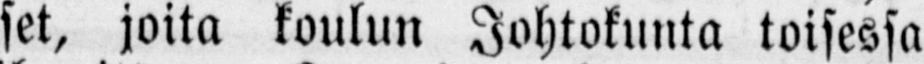set, joita koulun Johtokunta toisessa
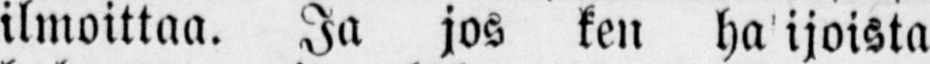ilmoittaa. Ja jos ken ha ijsoista
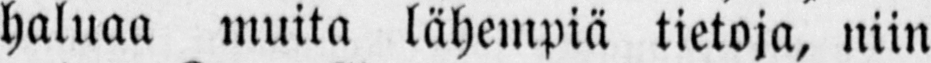haluaa muita lähempiä tietoja, niin
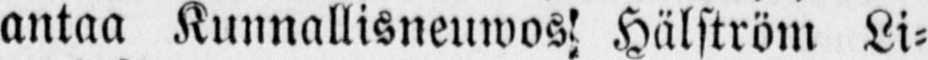antaa Kunnallisneuwos Hälström Li-
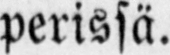perissä.
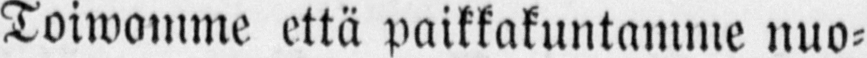Toiwomme että paikkakuntamme nuo-
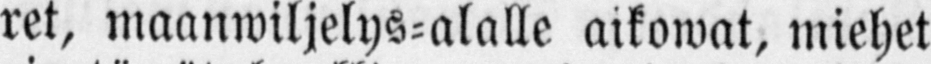ret, maanwiljelys-alalle aikowat, miehet
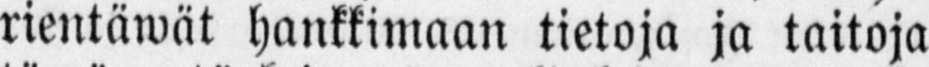rientäwät hankkimaan tietoja ja taitoja
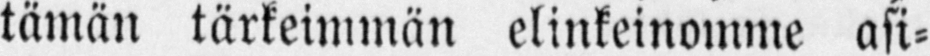tämän tärkeimmän elinkeinomme asi-
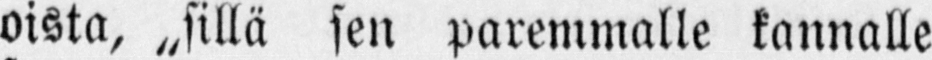oista, „sillä sen paremmalle kannalle
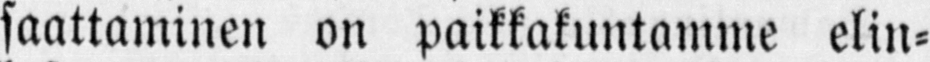saattaminen on paikkakuntamme elin-
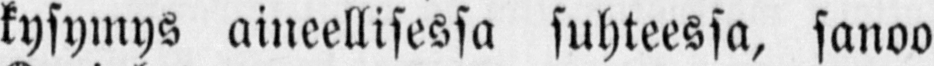kysymys aineellisessa suhteessa, sanoo
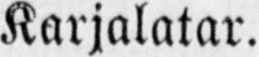Karjalatar.
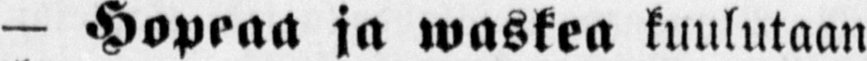— Hopeaa ja waskea kuulutaan
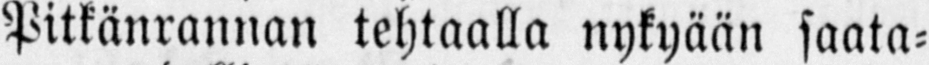Pitkänrannan tehtaalla nykyään säätä-
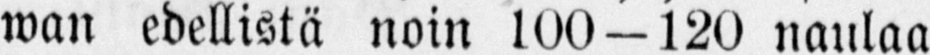wän edellistä noin 100 — 120 naulaa
